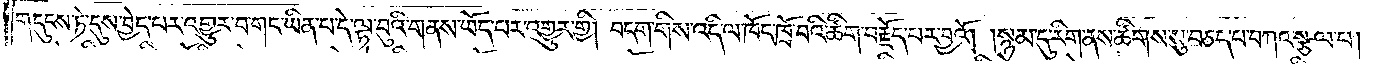གདུངས་ཏེ་དུས་བྱེད་པར་འགྱུར་པ་གང་ཡིན་པ་དེ་ལྟ་བུའི་གནས་ཡོད་པར་འགྱུར་གྱི། བདག་གིས་འདི་ལ་ཁོང་ཁྲོ་བའི་ཚིག་བརྗོད་པར་བྱའོ། །སྙམ་དུ་རིག་ནས་ཚིགས་སུ་བཅད་པ་བཀའ་སྩལ་པ།
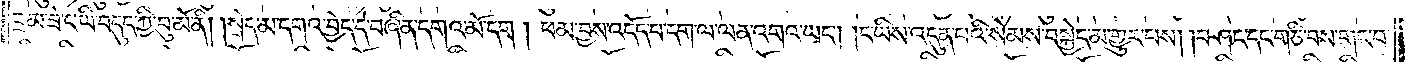བྲམ་ཟེ་ང་ཡི་བདུད་ཀྱི་བུ་མོ་ནི། །སྲེད་མ་དགའ་བྱེད་དེ་བཞིན་དགའ་མོ་དག། ཕམ་བྱས་འདོད་པ་དག་ལ་ལན་འགའ་ཡང༌། །ང་ཡིས་འདུན་པའི་སེམས་བསྐྱེད་མ་གྱུར་པས། །བཤང་དང་གཅི་བས་གང་བ་
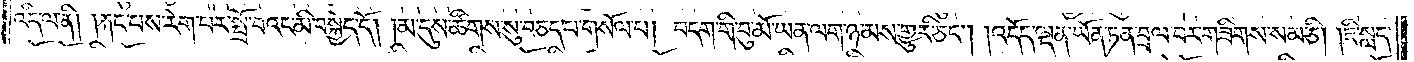འདི་ལ་ནི། །རྐང་པས་རེག་པར་སྤྲོ་བའང་མི་བསྐྱེད་དོ། །མ་དུས་ཚིགས་སུ་བཅད་པ་གསོལ་པ། བདག་གི་བུ་མོ་ཡན་ལག་ཉམས་གྱུར་ཅིང༌། །འདོད་ལྡན་ཡོན་ཏན་བྲལ་བར་གཟིགས་སམ་ཅི། །ཇི་སླད་
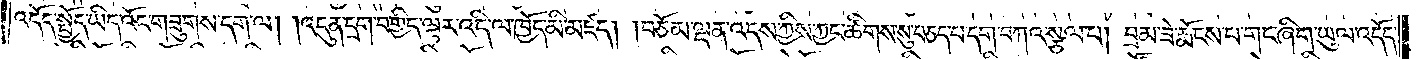འདོད་སྤྱོད་ཡིད་འོང་གཟུགས་དག་ལ། །འདུན་དྲག་བགྱིད་ལྟར་འདི་ལ་ཁྱོད་མི་མཛད། །བཅོམ་ལྡན་འདས་ཀྱིས་ཀྱང་ཚིགས་སུ་བཅད་པ་དག་བཀའ་སྩལ་པ། བྲམ་ཟེ་རྨོངས་པ་གང་ཞིག་ཡུལ་འདོད་
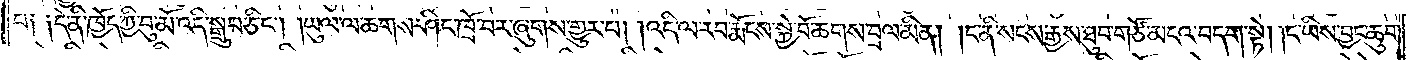པ༑ ༑དེ་ནི་ཁྱོད་ཀྱི་བུ་མོ་འདི་སྒྲུབ་ཅིང༌། །ཡུལ་ལ་ཆགས་ཤིང་ཁྲོ་བར་ཞུགས་གྱུར་པ། །འདི་ལ་རབ་རྨོངས་སྐྱེ་བོ་ཆགས་བྲལ་མིན། །ང་ནི་སངས་རྒྱས་ཐུབ་གཙོ་མངའ་བདག་སྟེ། །ང་ཡིས་བྱང་ཆུབ་
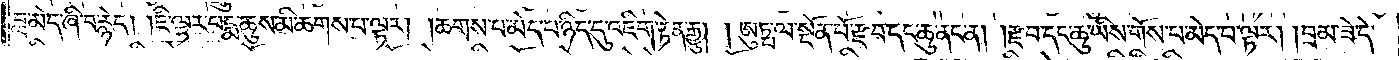བླ་མེད་ཞི་བ་རྙེད། །ཇི་ལྟར་པདྨ་ཆུས་མི་ཆགས་པ་ལྟར། །ཆགས་པ་མེད་པ་ཉིད་དུ་འཇིག་རྟེན་རྒྱུ། །ཨུཏྤ་ལ་སྔོན་པོ་རྫབ་དང་ཆུ་ནང་ན། །རྫབ་དང་ཆུ་ཡིས་གོས་པ་མེད་པ་ལྟར། །བྲམ་ཟེ་དེ་
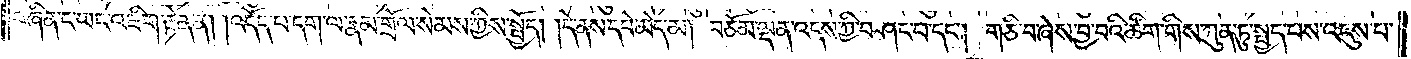བཞིན་ང་ཡང་འཇིག་རྟེན་ན། །འདོད་པ་དག་ལ་རྣམ་གྲོལ་སེམས་ཀྱིས་སྤྱོད། །དེ་ནས་དཔེ་མེད་མ། བཅོམ་ལྡན་འདས་ཀྱི་བཤང་པ་དང༌། གཅི་བ་ཞེས་བྱ་བའི་ཚིག་གིས་ཀུན་ཏུ་སྤྱད་པས་འདུས་པ་
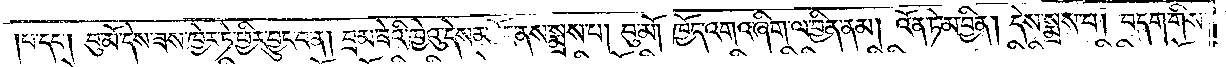པ་དང༌། བུ་མོ་དེས་ཟས་ཁྱེར་ཏེ་ཕྱིར་བྱུང་བ་ན། བྲམ་ཟེའི་ཁྱེའུ་དེས་མཐོང་ནས་སྨྲས་པ། བུ་མོ། ཁྱོད་འགའ་ཞིག་ལ་བྱིན་ནམ། འོན་ཏེ་མ་བྱིན། དེས་སྨྲས་པ། བདག་གིས་
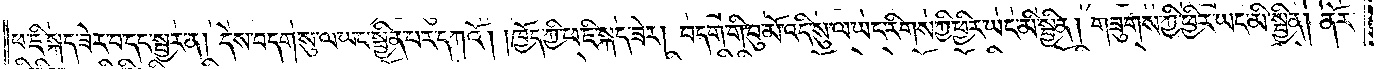ཕ་ཇི་སྐད་ཟེར་བ་དང་སྦྱར་ན། དེས་བདག་སུ་ལ་ཡང་སྦྱིན་པར་དཀའོ། །ཁྱོད་ཀྱི་ཕ་ཇི་སྐད་ཟེར། བདག་གི་བུ་མོ་འདི་སུ་ལ་ཡང་རིགས་ཀྱི་ཕྱིར་ཡང་མི་སྦྱིན། གཟུགས་ཀྱི་ཕྱིར་ཡང་མི་སྦྱིན། ནོར་
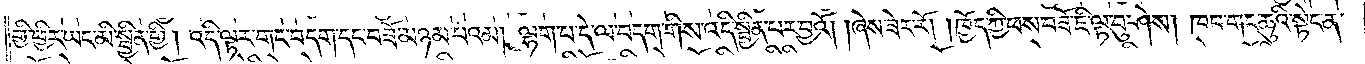གྱི་ཕྱིར་ཡང་མི་སྦྱིན་གྱི། འདི་ལྟར་གང་བདག་དང་བཟོ་མཉམ་པའམ། ལྷག་པ་དེ་ལ་བདག་གིས་འདི་སྦྱིན་པར་བྱའོ། །ཞེས་ཟེར་རོ། །ཁྱོད་ཀྱི་ཕས་བཟོ་ཇི་ལྟ་བུ་ཤེས། ཁབ་གང་ཆུའི་སྟེང་ན་
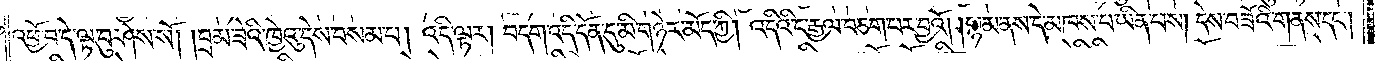འཕྱོ་བ་དེ་ལྟ་བུ་ཤེས་སོ། །བྲམ་ཟེའི་ཁྱེའུ་དེས་བསམ་པ། འདི་ལྟར། བདག་འདི་དོན་དུ་མི་གཉེར་མོད་ཀྱི། འདིའི་ང་རྒྱལ་བཅག་པར་བྱའོ། །སྙམ་ནས་དེ་མཁས་པ་ཡིན་པས། དེས་བཟོའི་གནས་དང༌།
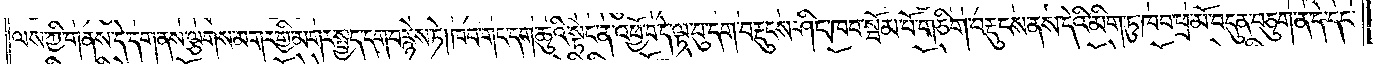ལས་ཀྱི་གནས་དེ་དག་ནས་ལྕགས་མགར་གྱི་མགར་སྤྱད་དག་བརྙེས་ཏེ། ཁབ་གང་དག་ཆུའི་སྟེང་ན་འཕྱོ་བ་དེ་ལྟ་བུ་དག་བརྡུངས་ཤིང་ཁབ་སྦོམ་པོ་གཅིག་བརྡུངས་ནས་དེའི་མིག་ཏུ་ཁབ་ཕྲ་མོ་བདུན་བཅུག་ན་དེ་དང་
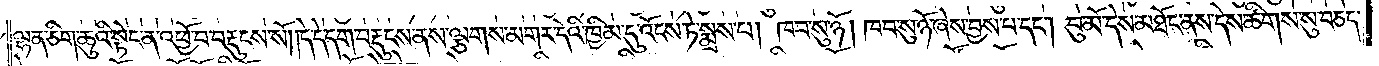ལྷན་ཅིག་ཆུའི་སྟེང་ན་འཕྱོ་བ་བརྡུངས་སོ། །དེ་དེ་དག་བརྡུངས་ནས་ལྕགས་མགར་དེའི་ཁྱིམ་དུ་འོངས་ཏེ་སྨྲས་པ། ཁབ་སུ་ཉོ། ཁབ་སུ་ཉོ་ཞེས་བྱས་པ་དང༌། བུ་མོ་དེས་མཐོང་ནས་དེས་ཚིགས་སུ་བཅད་
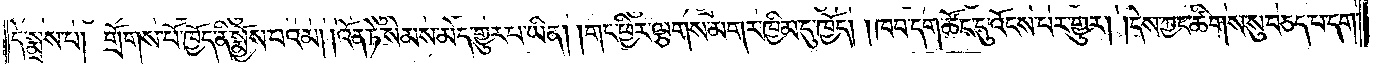དེ་སྨྲས་པ། གྲོགས་པོ་ཁྱོད་ནི་སྨྱོས་པའམ། །འོན་ཏེ་སེམས་མེད་གྱུར་པ་ཡིན། །གང་ཕྱིར་ལྕགས་མགར་ཁྱིམ་དུ་ཁྱོད། །ཁབ་དག་ཚོང་དུ་འོངས་པར་གྱུར། །དེས་ཀྱང་ཚིགས་སུ་བཅད་པ་དག་
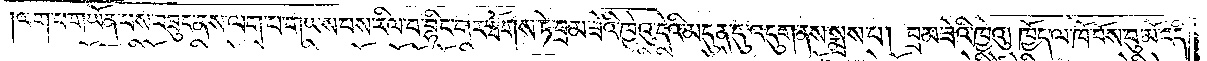ལག་པ་གཡོན་པས་བཟུང་ནས་ལག་པ་གཡས་པས་རིལ་བ་བྷིང་གར་ཐོགས་ཏེ་བྲམ་ཟེའི་ཁྱེའུ་དེའི་མདུན་དུ་འདུག་ནས་སྨྲས་པ། བྲམ་ཟེའི་ཁྱེའུ། ཁྱོད་ལ་ཁོ་བོས་བུ་མོ་འདི་
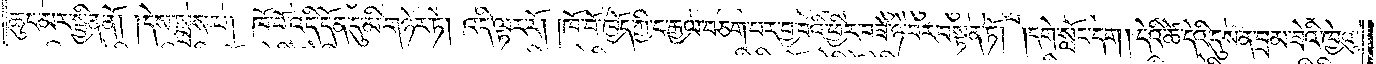ཆུང་མར་སྦྱིན་ནོ། །དེས་སྨྲས་པ། ཁོ་བོ་འདི་དོན་དུ་མི་གཉེར་ཏེ། འདི་ལྟར་རོ། །ཁོ་བོ་ཁྱོད་ཀྱི་ང་རྒྱལ་བཅག་པར་བྱ་བའི་ཕྱིར་བཟོ་ཉེ་བར་བསྟན་ཏོ། །དགེ་སློང་དག །དེའི་ཚེ་དེའི་དུས་ན་བྲམ་ཟེའི་ཁྱེའུ་
